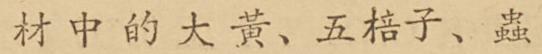材中的大黃、五棓子、蟲
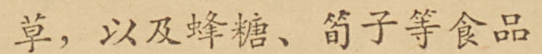草，以及蜂糖、筍子等食品
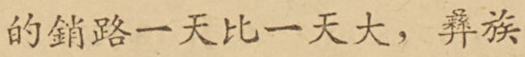的銷路一天比一天大，彝族
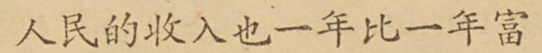人民的收入也一年比一年富
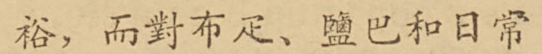裕，而對布疋、鹽巴和日常
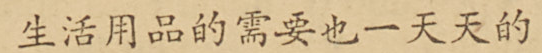生活用品的需要也一天天的
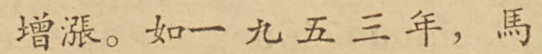增漲。如一九五三年，馬
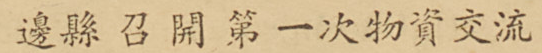邊縣召開第一次物資交流
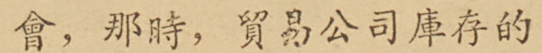會，那時，貿易公司庫存的
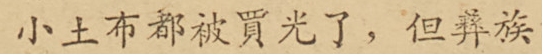小土布都被買光了，但彝族
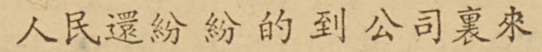人民還紛紛的到公司裏來
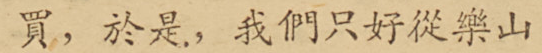買，於是，我們只好從樂山
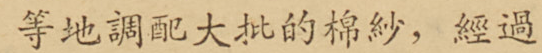等地調配大批的棉紗，經過
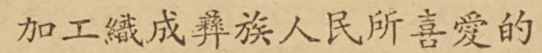加工織成彝族人民所喜愛的
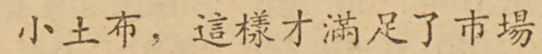小土布，這樣才滿足了市場
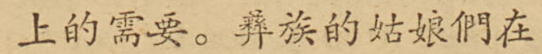上的需要。彝族的姑娘們在
